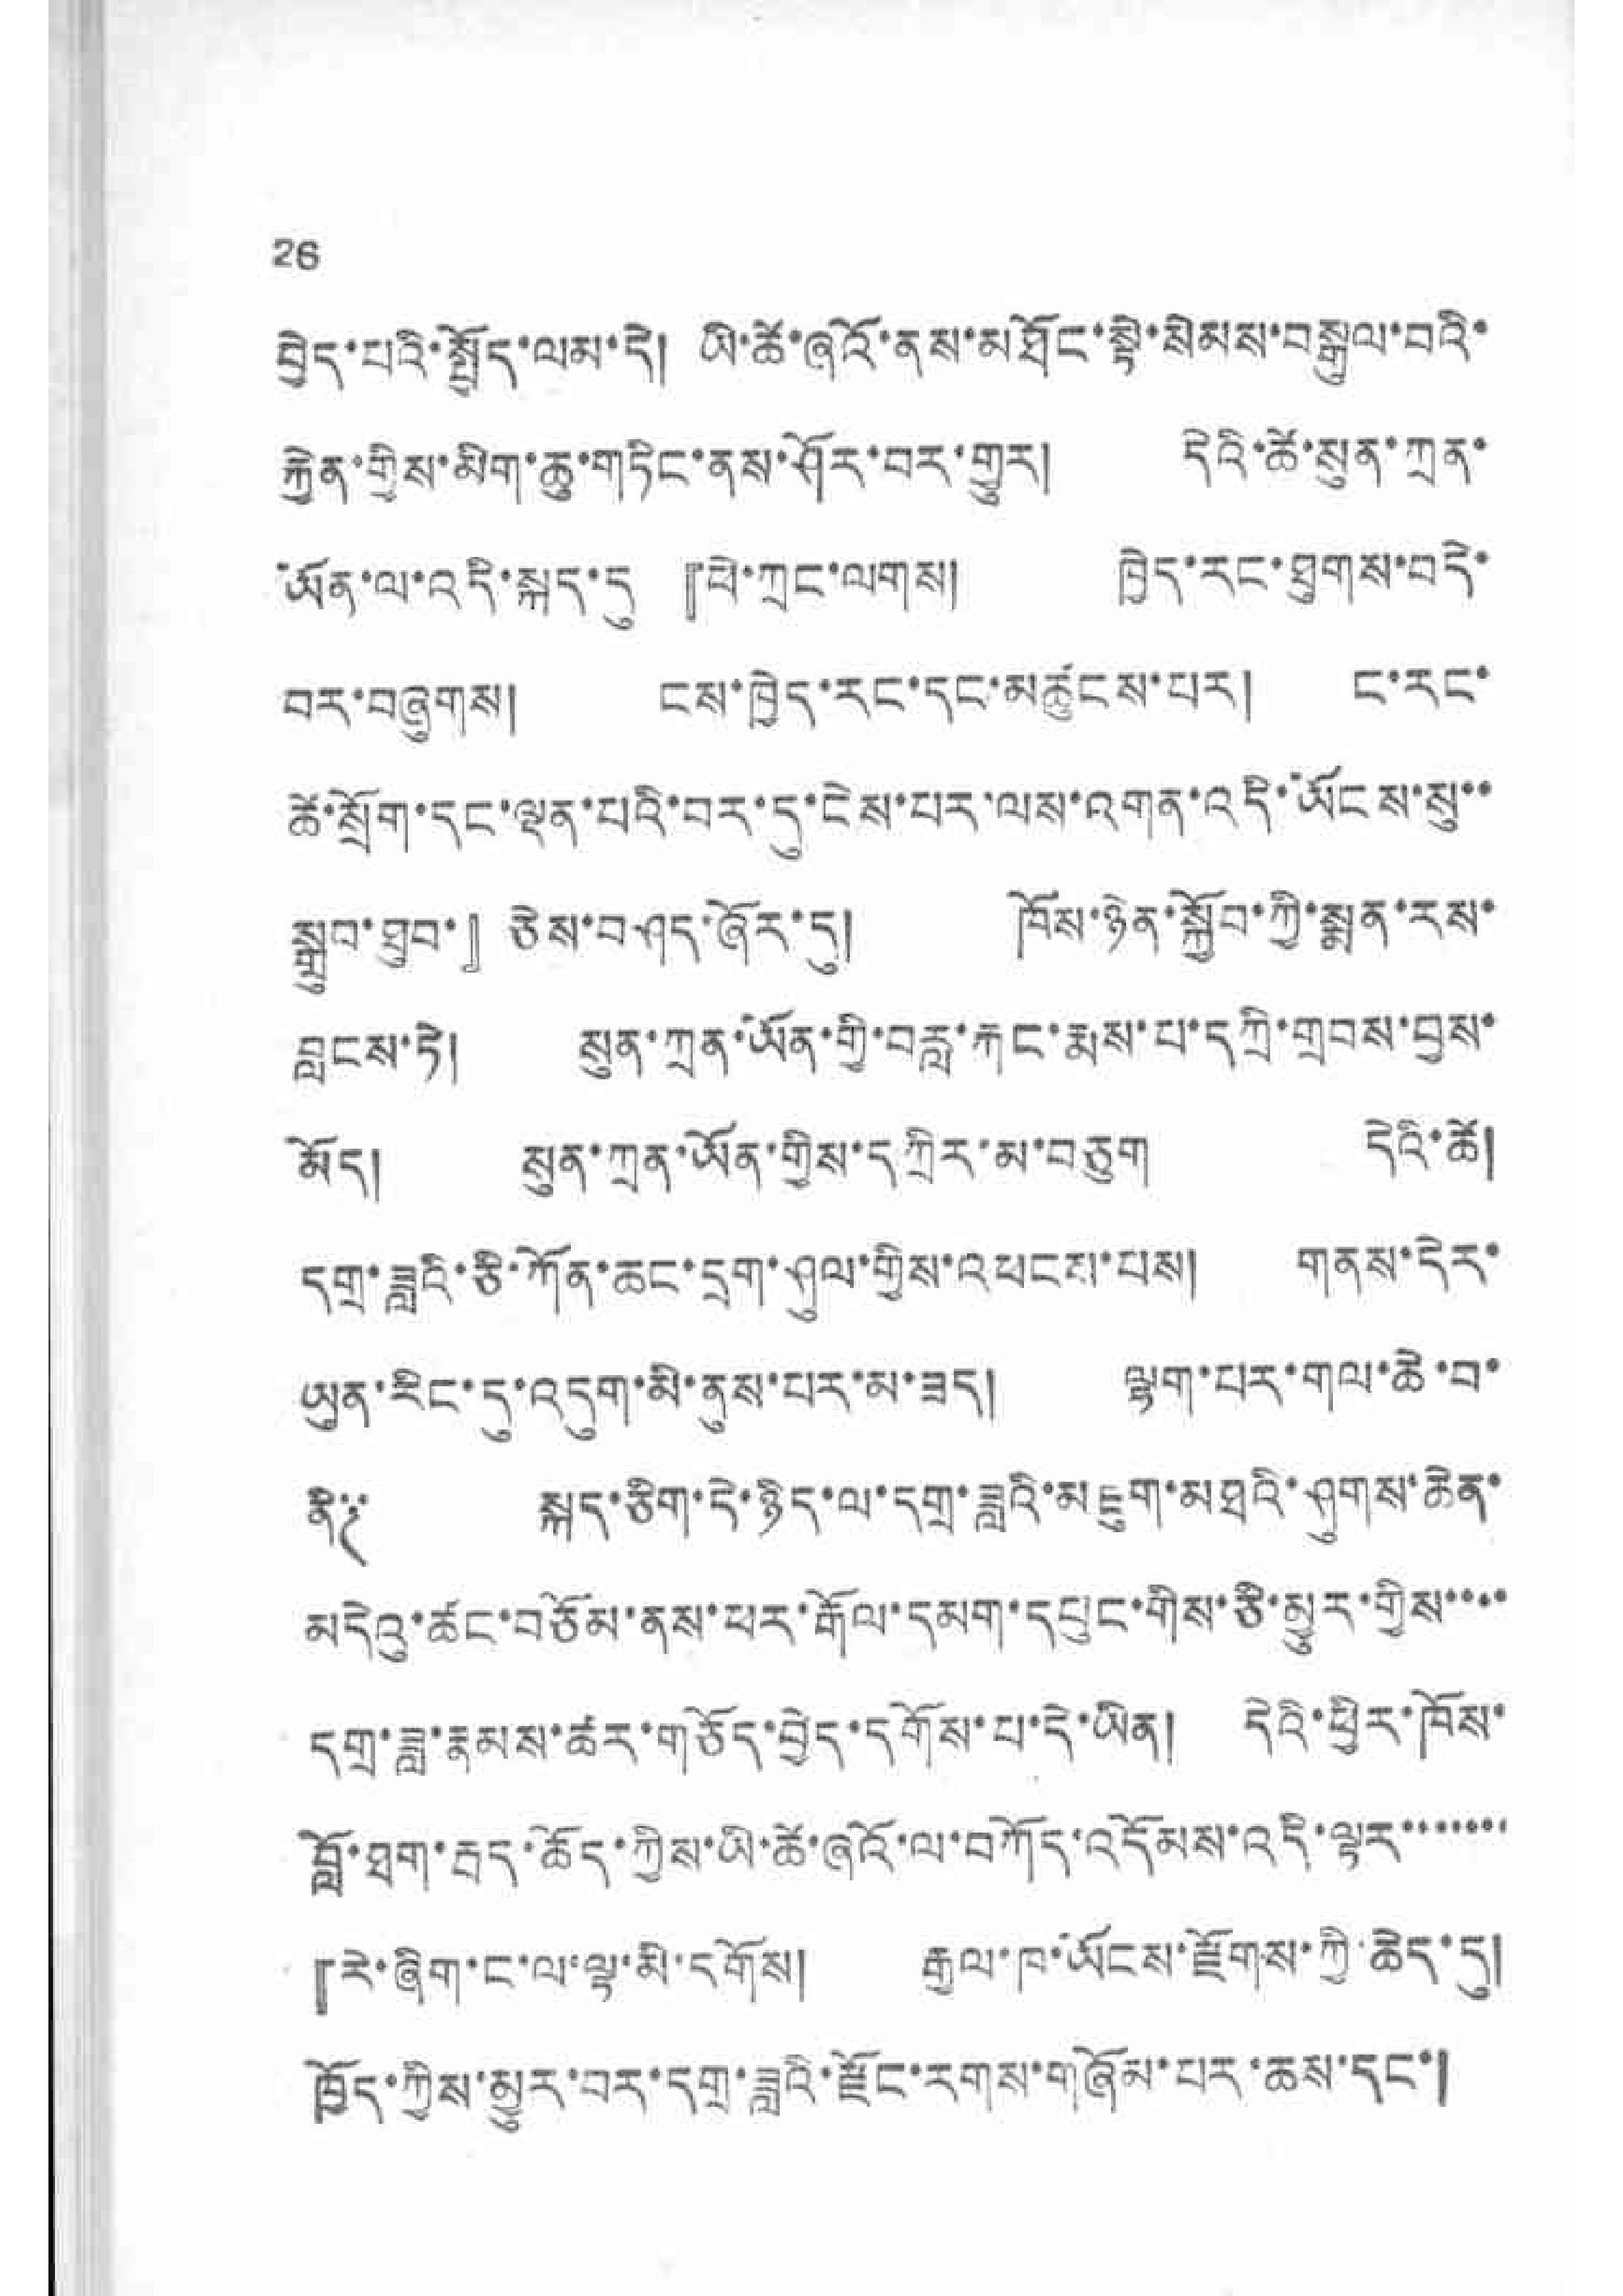26
བྱེད་པའི་སྤྱོད་ལམ་དེ། ཡི་ཚེ་ཞའོ་ནས་མཐོང་སྟེ་སིམས་བསྒུལ་བའི་
རྐྱེན་གྱིས་མིག་ཆུ་གཏིང་ནས་ཤོར་བར་གྱུར། དེའི་ཚེ་སུན་ཀྲན་
ཡོན་ལ་འདི་སྐད་དུ『ཕེ་ཀྲང་ལགས། ཁྱེད་རང་ཐུགས་བདེ་
བར་བཞུགས། ངས་ཁྱེད་རང་དང་མཚུངས་པར། ང་རང་
ཚེ་སྲོག་དང་ལྡན་པའི་བར་དུ་ངེས་པར་ལས་འགན་འདི་ཡོངས་སུ་་
སྒྲུབ་ཐུབ་』ཅེས་བཤད་ཞོར་དུ། ཁོས་ཉེན་སྐྱོབ་ཀྱི་སྨན་རས་
བླངས་ཏེ། སུན་ཀྲན་ཡོན་གྱི་བརླ་རྐང་རྨས་པ་དཀྲི་གྲབས་བྱས་
མོད། སུན་ཀྲན་ཡོན་གྱིས་དཀྲིར་མ་བཅུག དེའི་ཚེ།
དགྲ་ཟླའི་ཅི་ཀོན་ཆང་དྲག་ཤུལ་གྱིས་འཕངས་པས། གནས་དེར་
ཡུན་རིང་དུ་འདུག་མི་ནུས་པར་མ་ཟད། ལྷག་པར་གལ་ཆེ་བ་
ནི༐ སྐད་ཅིག་དེ་ཉིད་ལ་དགྲ་ཟླའི་མཇུག་མཐའི་ཤུགས་ཆེན་
མདེའུ་ཚང་བཅོམ་ནས་ཕར་རྒོལ་དམག་དཔུང་གིས་ཅི་མྱུར་གྱིས་་་་
དགྲ་ཟླ་རྣམས་ཚར་གཅོད་བྱེད་དགོས་པ་དེ་ཡིན། དེའི་ཕྱིར་ཁོས་
བློ་ཐག་རྦད་ཆོད་ཀྱིས་ཡི་ཚེ་ཞའོ་ལ་བཀོད་འདོམས་འདི་ལྟར་་་་་་་
『རེ་ཞིག་ང་ལ་ལྟ་མི་དགོས། རྒྱལ་ཁ་ཡོངས་རྫོགས་ཀྱི་ཆེད་དུ།
ཁྱོད་ཀྱིས་མྱུར་བར་དགྲ་ཟླའི་རྫོང་རགས་གཞོམ་པར་ཆས་དང་།
